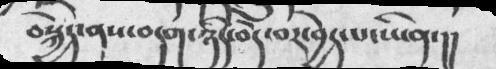བསྐྱེད་ནས་བདག་ཉིད་བདེ་བར་བྱེད་པ་ཡིམ་།།
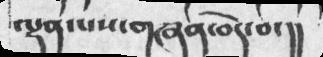ལྡན་པས་གཞན་བདེ་བ་།།
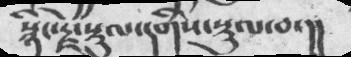སྙིད་རྗེ་སྡུལ་དགིས་སྡུལ་བ་།།
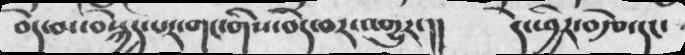བདེ་མ་བསྐྱེད་པར་གང་གིས་བདེ་བར་འགྱུཏ་།།    དེ་ཕྱིར་བརྩེ་དང་
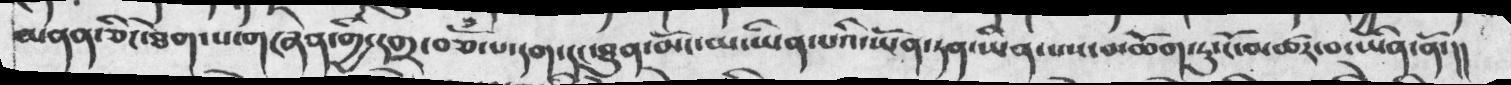མནན་ཅི་ཐེག་པ་གཞིན་གྱི་དགྲ་བཅོཾ་པ་དག་དུ་ཐུན་མོང་མ་ཡིན་པའི་ཡོན་ཏན་ཡིན་པས་མཆོག་ཏུ་ངོ་མཚར་བ་ཡིན་ནོ་།།
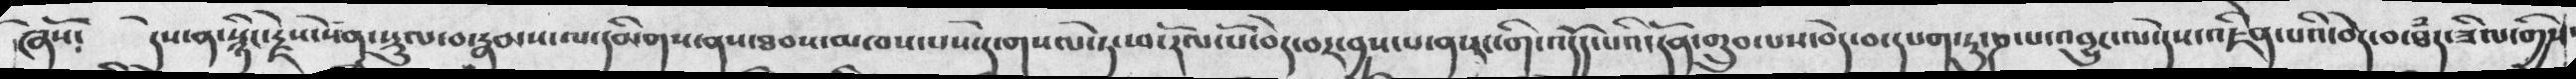ཞེསོ༴   དེས་ན་སྙིང་རྗེས་སེཾན་སྡུལ་བ་རྣམས་ལ་དམིནས་ནས་ཐབས་མཁས་པས་དེ་གསལ་ཏེ་ཕ་རོལ་པོ་བདེ་བར་བྱས་པ་ན་རང་གི་འདོད་པའི་དོན་གྲུབ་པས་བདེ་བ་དཔག་ཏུ་ཎ་པ་འབྱུང་ལ་དེས་འཇིག་པའི་བདེ་ཐཾད་ཟིལ་གྱིས་
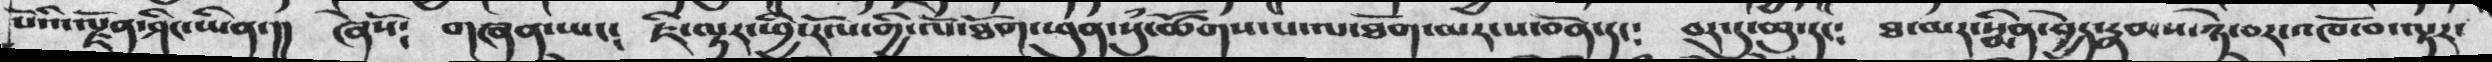པོའི་ལྗོན་ཤིང་ཡིན་།།  ཞེསོ༴  གཞན་ཡང༴  ཇི་ལྟར་ཕྱི་རོལ་གྱི་ལོ་ཐོག་ཕུན་སུཾ་ཚོགས་པ་ལ་ཐོག་མར་པ་བོན་དང༴  བར་དུ་ཆུ་དང༴  ཐ་མར་སྨིན་བྱེད་རྣམས་ཉེ་བར་འཁོ་བ་ལྟར་
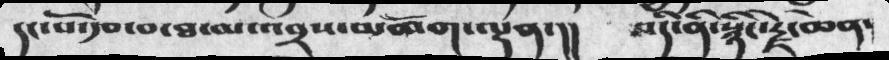དང་པོ་རྩ་བ་ཐ་མ་འབྲས་མཆོག་ལྡན་།།  བདེ་ནི་སྙིང་རྗེ་ཆེན་
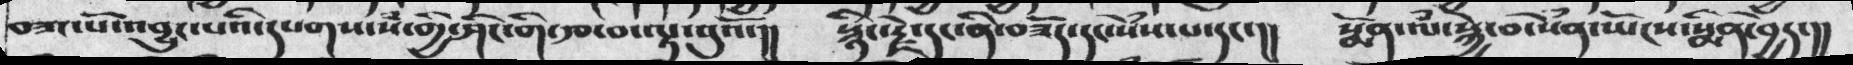བཟང་པོ་འབྱུང་པའི་དཔགས་སཾ་གྱི་ཤིང་གི་རྩ་བ་ལྟ་བུའོ་།།  སྙིང་རྗེ་དང་ནི་བཟོད་དང་སེཾས་པ་དང་།།  སྨོན་ལཾ་སྐྱེ་བ་སེཾན་ཡོངས་སྨིན་བྱེད་།།
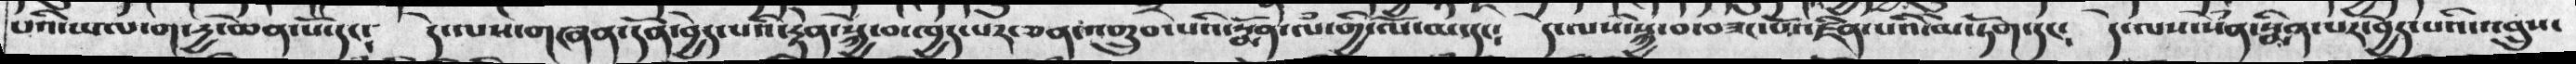པའི་ཡལ་ག་དྱ་ཆེན་པོ་དང༴  དེ་ལས་གཞན་དོན་བྱེད་པའི་རྟེན་སྐྱེ་བ་ཁྱད་པར་ཅན་འགྲུབ་པའི་སྨོན་ལཾ་གྱི་ལོ་མ་དང༴  དེ་ལས་སྐྱེ་བ་བཟང་པོ་འཛིན་པའི་ཡོན་ཏན་དང༴  དེ་ལས་སེཾན་སྨིན་པར་བྱེད་པའི་འབྲུས་
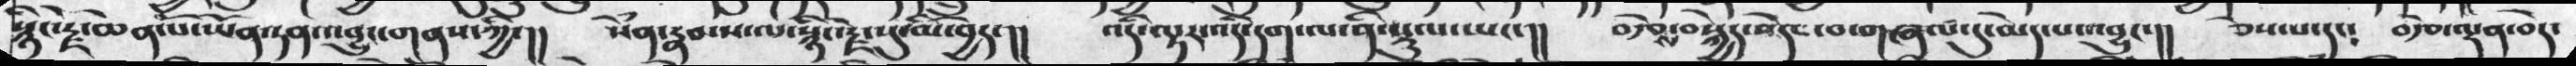སྙིང་རྗེ་ཆེན་པོ་ཡོན་རན་འབྱུང་གནས་ཀྱི་།།  སེཾན་རྣམས་ལ་སྙིང་རྗེ་དུ་མི་བྱེད་།།  འདི་ལྟར་འདི་དག་ལ་ནི་སྡུལ་ཡང་།།   བརྩེ་བསྐྱེད་བདེ་བ་གཞལ་དུ་མིད་པ་འབྱུང་།།  ཅེས་པ་དང༴  བརྩེ་ལྡན་བདེ་
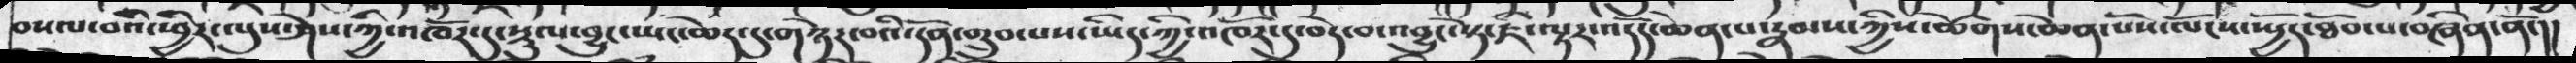བསལ་བའི་ཕྱིར་ལུས་ཤེས་ཀྱི་འཁོར་དུ་སྡུལ་བྱུང་ཡང་ཆེད་དུ་གཉེར་བའི་དོན་གྲུབ་པས་ཡིད་ཀྱི་འཁོར་དུ་བདེ་བ་འབྱུང་ཏེ་ཇི་ལྟར་འདོད་ཆེན་པ་རྣམས་ཀྱིས་ཚོགས་ཆེན་པོས་ལོངས་སྤྱོད་ཐོབ་པ་བཞིན་ནོ་།།
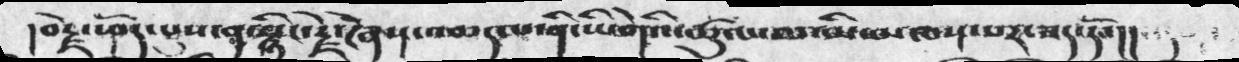།བརྗེ་ཕོད་པུས་ན་སྙིང་རྗེ་ཞེས་འཆད་པ་ནི་ཡིགེའི་ཚུལ་ལ་མི་མཁས་པར་ཟད་དོ་།།
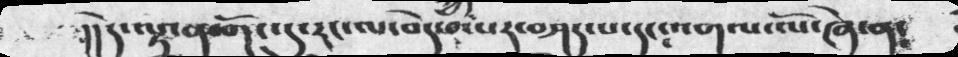།།དེ་ལྟ་ན་གོང་དུ་རང་ལ་བདེ་བ་པར་བཤད་པ་དང་འགལ་ལོ་ཞེ་ན༴
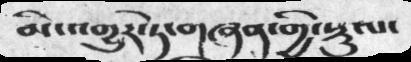མི་འགྱུར་ཏེ་གཞན་གྱི་སྡུལ་
